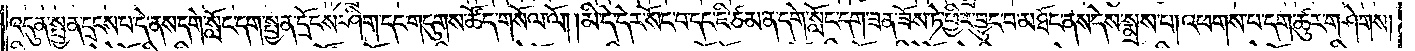འདུན་སྤྱན་དྲངས་པ་དེ་ནས་དགེ་སློང་དག་སྤྱན་དྲོངས་ཤིག་དང་གདུགས་ཚོད་གསོལ་ལོ། །མི་དེ་དེར་སོང་བ་དང་ཇི་ཙམ་ན་དགེ་སློང་དག་ཟན་ཟོས་ཏེ་ཕྱིར་བྱུང་བ་མཐོང་ནས་དེས་སྨྲས་པ། འཕགས་པ་དག་ཚུར་གཤེགས།
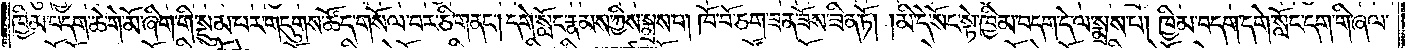ཁྱིམ་བདག་ཆེ་གེ་མོ་ཞིག་གི་སྡུམ་པར་གདུགས་ཚོད་གསོལ་བར་ཅི་གནང༌། དགེ་སློང་རྣམས་ཀྱིས་སྨྲས་པ། ཁོ་བོ་ཅག་ཟན་ཟོས་ཟིན་ཏོ། །མི་དེ་སོང་སྟེ་ཁྱིམ་བདག་དེ་ལ་སྨྲས་པ། ཁྱིམ་བདག་དགེ་སློང་དག་གི་ཞལ་
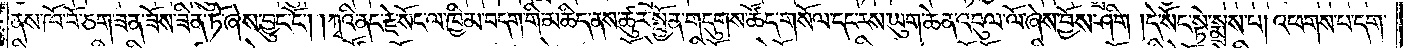ནས་ཁོ་བོ་ཅག་ཟན་ཟོས་ཟིན་ཏོ་ཞེས་བྱུང་ངོ༌། །ཀྭའི་ནང་རྗེ་སོང་ལ་ཁྱིམ་བདག་གི་མཆིད་ནས་ཚུར་སྤྱོན་གདུགས་ཚོད་གསོལ་དང་རས་ཡུག་ཆེན་འབུལ་ལོ་ཞེས་བྱོས་ཤིག །དེ་སོང་སྟེ་སྨྲས་པ། འཕགས་པ་དག་
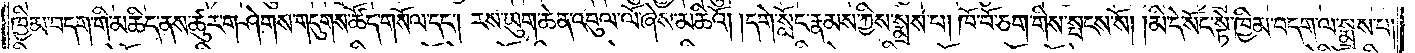ཁྱིམ་བདག་གི་མཆིད་ནས་ཚུར་གཤེགས་གདུགས་ཚོད་གསོལ་དང༌། རས་ཡུག་ཆེན་འབུལ་ལོ་ཞེས་མཆིའོ། །དགེ་སློང་རྣམས་ཀྱིས་སྨྲས་པ། ཁོ་བོ་ཅག་གིས་སྤངས་སོ། །མི་དེ་སོང་སྟེ་ཁྱིམ་བདག་ལ་སྨྲས་པ།
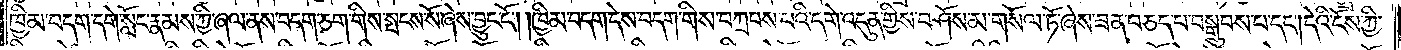ཁྱིམ་བདག་དགེ་སློང་རྣམས་ཀྱི་ཞལ་ནས་བདག་ཅག་གིས་སྤངས་སོ་ཞེས་བྱུང་ངོ༌། །ཁྱིམ་བདག་དེས་བདག་གིས་བཀྲབས་པའི་དགེ་འདུན་གྱིས་བཤོས་མ་གསོལ་ཏོ་ཞེས་ཟན་བཅད་པ་བསྒྲུབས་པ་དང༌། དེའི་ངོས་ཀྱི་
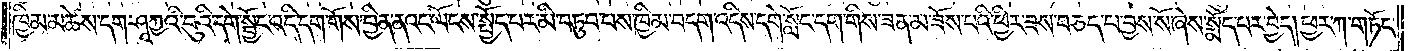ཁྱིམ་མཚེས་དག་ཤཱཀྱའི་བུའི་དགེ་སྦྱོང་འདི་དག་གོས་བྱིན་ནའང་ལོངས་སྤྱོད་པར་མི་བཏུབ་པས་ཁྱིམ་བདག་འདིས་དགེ་སློང་དག་གིས་ཟན་མ་ཟོས་པའི་ཕྱིར་ཟས་བཅད་པ་བྱས་སོ་ཞེས་སྨོད་པར་བྱེད། ཕྱར་ཀ་གཏོང་
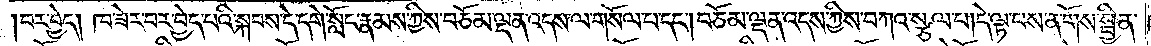བར་བྱེད། ཁ་ཟེར་བར་བྱེད་པའི་སྐབས་དེ་དགེ་སློང་རྣམས་ཀྱིས་བཅོམ་ལྡན་འདས་ལ་གསོལ་པ་དང༌། བཅོམ་ལྡན་འདས་ཀྱིས་བཀའ་སྩལ་པ། དེ་ལྟ་བས་ན་གོས་སྦྱིན་
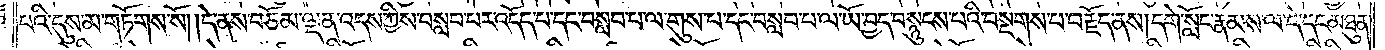པའི་དུས་མ་གཏོགས་སོ། །དེ་ནས་བཅོམ་ལྡན་འདས་ཀྱིས་བསླབ་པར་འདོད་པ་དང་བསླབ་པ་ལ་གུས་པ་དང་བསླབ་པ་ལ་ཡོ་བྱད་བསྙུངས་པའི་བསྔགས་པ་བརྗོད་ནས། དགེ་སློང་རྣམས་ལ་དེ་དང་མཐུན་
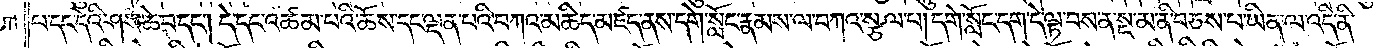པ་དང་དེའི་ཤས་ཆེ་བ་དང༌། དེ་དང་འཚམ་པའི་ཆོས་དང་ལྡན་པའི་བཀའ་མཆིད་མཛད་ནས་དགེ་སློང་རྣམས་ལ་བཀའ་སྩལ་པ། དགེ་སློང་དག་དེ་ལྟ་བས་ན་སྔ་མ་ནི་བཅས་པ་ཡིན་ལ་འདི་ནི་
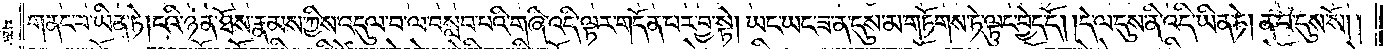གནང་བ་ཡིན་ཏེ། ངའི་ཉན་ཐོས་རྣམས་ཀྱིས་འདུལ་བ་ལ་བསླབ་པའི་གཞི་འདི་ལྟར་གདོན་པར་བྱ་སྟེ། ཡང་ཡང་ཟ་ན་དུས་མ་གཏོགས་ཏེ་ལྟུང་བྱེད་དོ། །དེ་ལ་དུས་ནི་འདི་ཡིན་ཏེ། ན་བ་དུས་སོ། །
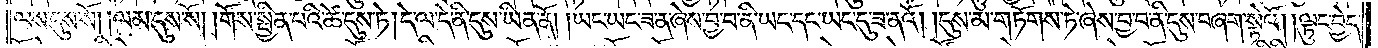ལས་དུས་སོ། །ལམ་དུས་སོ། །གོས་སྦྱིན་པའི་ཚེ་དུས་ཏེ། དེ་ལ་དེ་ནི་དུས་ཡིན་ནོ། །ཡང་ཡང་ཟ་ན་ཞེས་བྱ་བ་ནི་ཡང་དང་ཡང་དུ་ཟ་ནའོ། །དུས་མ་གཏོགས་ཏེ་ཞེས་བྱ་བ་ནི་དུས་བཞག་སྟེའོ། །ལྟུང་བྱེད་
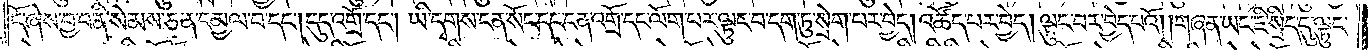དོ་ཞེས་བྱ་བ་ནི་སེམས་ཅན་དམྱལ་བ་དང༌། དུད་འགྲོ་དང༌། ཡི་དྭགས་ངན་སོང་དང་ངན་འགྲོ་དང་ལོག་པར་ལྟུང་བ་དག་ཏུ་སྲེག་པར་བྱེད། འཚོད་པར་བྱེད། ལྟུང་བར་བྱེད་པའོ། །གཞན་ཡང་ཇི་སྲིད་དུ་ལྟུང་
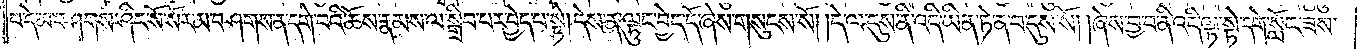བ་དེ་མ་བཤགས་ཤིང་སོ་སོར་མ་བཤགས་ན་དགེ་བའི་ཆོས་རྣམས་ལ་སྒྲིབ་པར་བྱེད་པ་སྟེ། དེས་ན་ལྟུང་བྱེད་དོ་ཞེས་གསུངས་སོ། །དེ་ལ་དུས་ནི་འདི་ཡིན་ཏེ་ན་བ་དུས་སོ། །ཞེས་བྱ་བ་ནི་འདི་ལྟ་སྟེ་དགེ་སློང་ཟས་
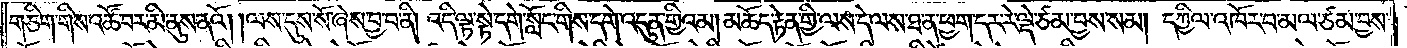གཅིག་གིས་འཚོ་བར་མི་ནུས་ནའོ། །ལས་དུས་སོ་ཞེས་བྱ་བ་ནི། འདི་ལྟ་སྟེ་དགེ་སློང་གིས་དགེ་འདུན་གྱིའམ། མཆོད་རྟེན་གྱི་ལས་སྡེ་ལས་ཐ་ན་ཕྱག་དར་རེ་ལྡེ་ཙམ་བྱས་སམ། དཀྱིལ་འཁོར་བ་མལ་ཙམ་བྱས་
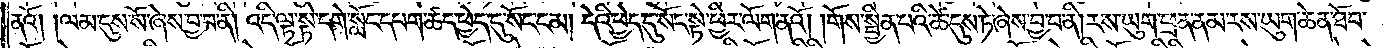ནའོ། །ལམ་དུས་སོ་ཞེས་བྱ་བ་ནི། འདི་ལྟ་སྟེ་དགེ་སློང་དཔག་ཚད་ཕྱེད་དུ་སོང་ངམ། དེའི་ཕྱེད་དུ་སོང་སྟེ་ཕྱིར་ལོག་ནའོ། །གོས་སྦྱིན་པའི་ཚེ་དུས་ཏེ་ཞེས་བྱ་བ་ནི། རས་ཡུག་ཕྲན་ནམ་རས་ཡུག་ཆེན་ཐོབ་
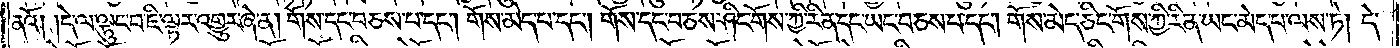ནའོ། །དེ་ལ་ལྟུང་བ་ཇི་ལྟར་འགྱུར་ཞེ་ན། གོས་དང་བཅས་པ་དང༌། གོས་མེད་པ་དང༌། གོས་དང་བཅས་ཤིང་གོས་ཀྱི་རིན་དང་ཡང་བཅས་པ་དང༌། གོས་མེད་ཅིང་གོས་ཀྱི་རིན་ཡང་མེད་པ་ལས་ཏེ། དེ་
